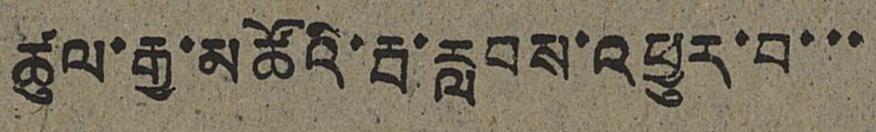ཚུལ་རྒྱ་མཚོའི་རྦ་རླབས་འཕྱུར་བ་་་
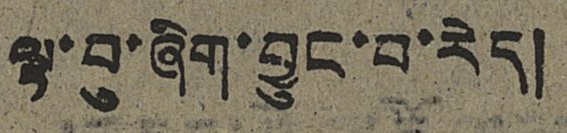ལྟ་བུ་ཞིག་བྱུང་བ་རེད།
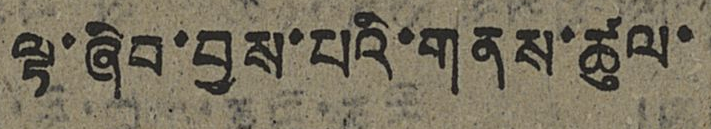ལྟ་ཞིབ་བྱས་པའི་གནས་ཚུལ་
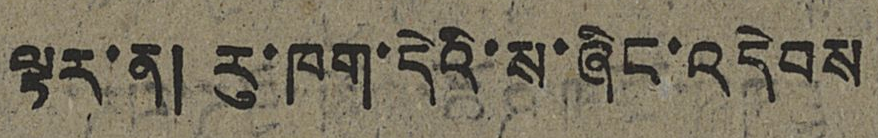ལྟར་ན། རུ་ཁག་དེའི་ས་ཞིང་འདེབས
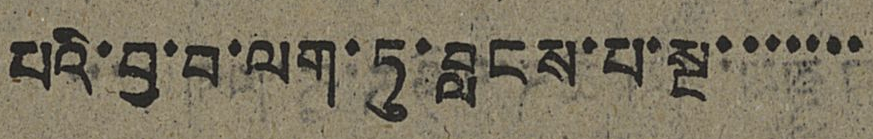པའི་བྱ་བ་ལག་ཏུ་བླངས་པ་སྔ་་་་་་
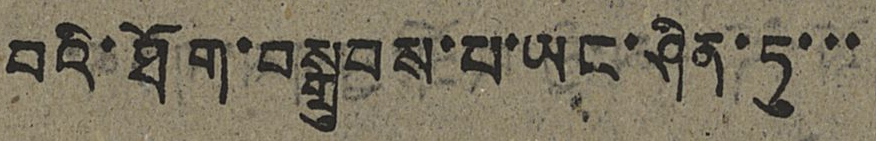བའི་ཐོག་བསྒྲུབས་པ་ཡང་ཤིན་ཏུ་་་
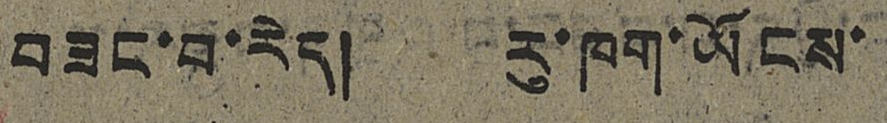བཟང་བ་རེད། རུ་ཁག་ཡོངས་
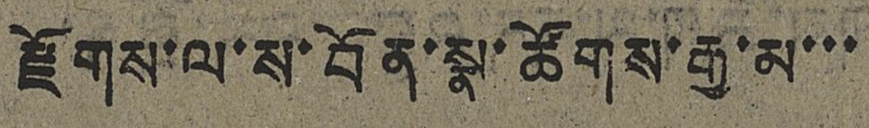རྫོགས་ལ་ས་བོན་སྣ་ཚོགས་རྒྱ་མ་་་
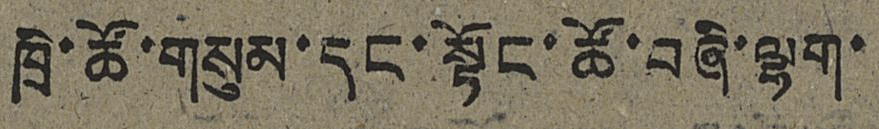ཁྲི་ཚོ་གསུམ་དང་སྟོང་ཚོ་བཞི་ལྷག་
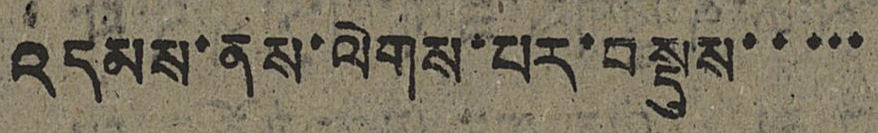འདམས་ནས་ལེགས་པར་བསྡུས་་་་་
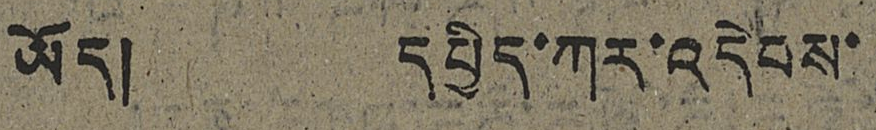ཡོད། དཔྱིད་ཀར་འདེབས་
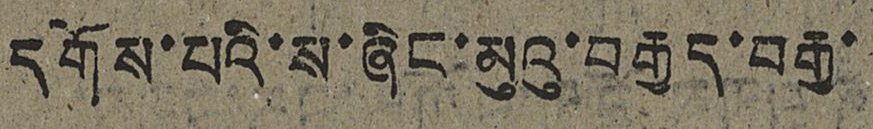དགོས་པའི་ས་ཞིང་མུའུ་བརྒྱད་བརྒྱ་
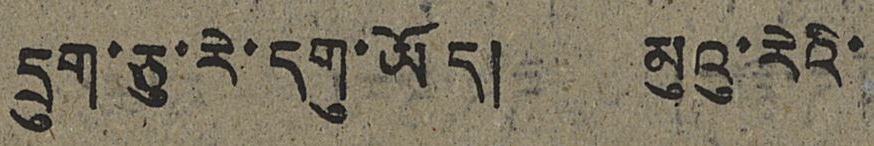དྲུག་ཅུ་རེ་དགུ་ཡོད། མུའུ་རེའི་
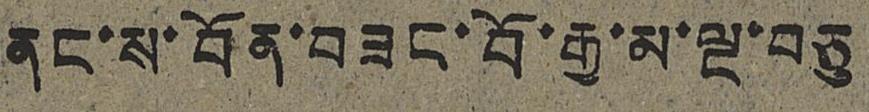ནང་ས་བོན་བཟང་བོ་རྒྱ་མ་ལྔ་བཅུ
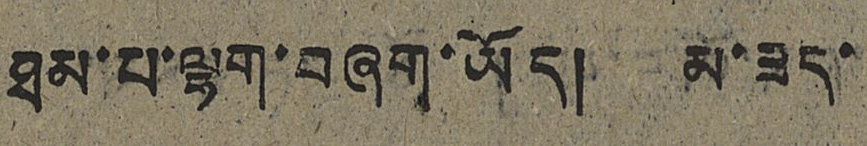ཐམ་པ་ལྷག་བཞག་ཡོད། མ་ཟད་
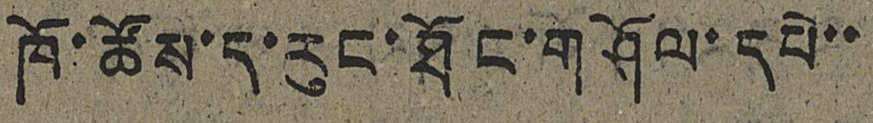ཁོ་ཚོས་ད་རུང་ཐོང་གཤོལ་དཔེ་་
